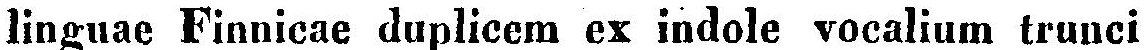linguae Finnicae duplicem ex indole vocalium trunci
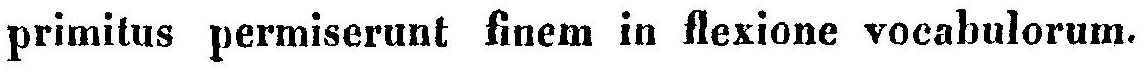primitus permiserunt finem in flexione vocabulorum.
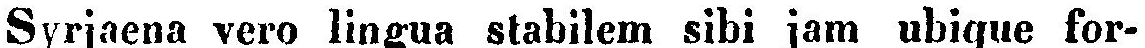Syrjaena vero lingua stabilem sibi iam ubique for-
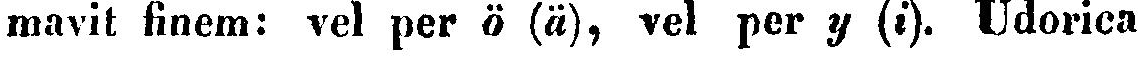mavit finem: vel per ö (ä), vel per y (i). Udorica
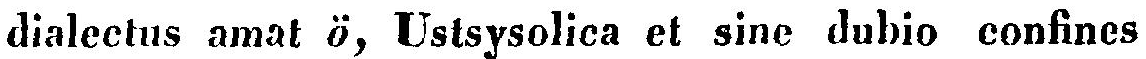dialectus amat ö, Ustsysolica et sine dubio confines
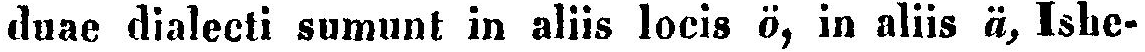duae dialecti sumunt in aliis locis ö, in aliis ä, Ishe-
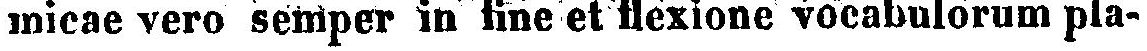micae vero semper in fine et flexione vocabulorum pla-
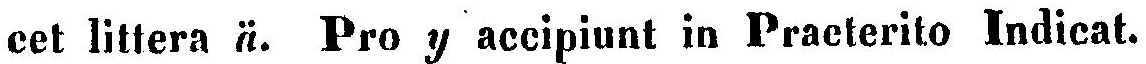cet littera ä. Pro y accipiunt in Praeterito Indicat.
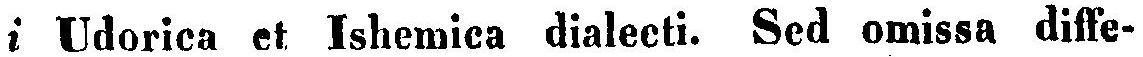i Udorica et Ishemica dialecti. Sed omissa diffe-
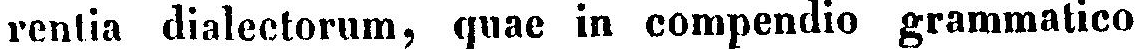rentia dialectorum, quae in compendio grammatico
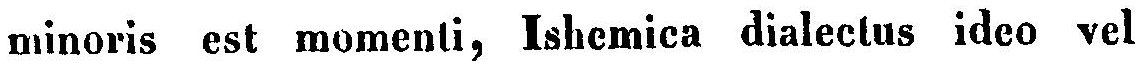minoris est momenti, Ishemica dialectus ideo vel
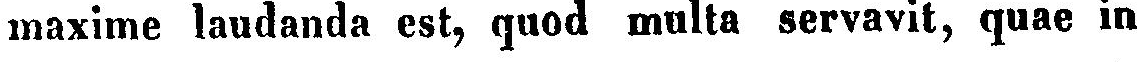maxime laudanda est, quod multa servavit, quae in
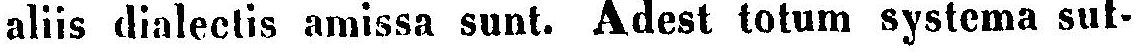aliis dialectis amissa sunt. Adest totum systema suf-
